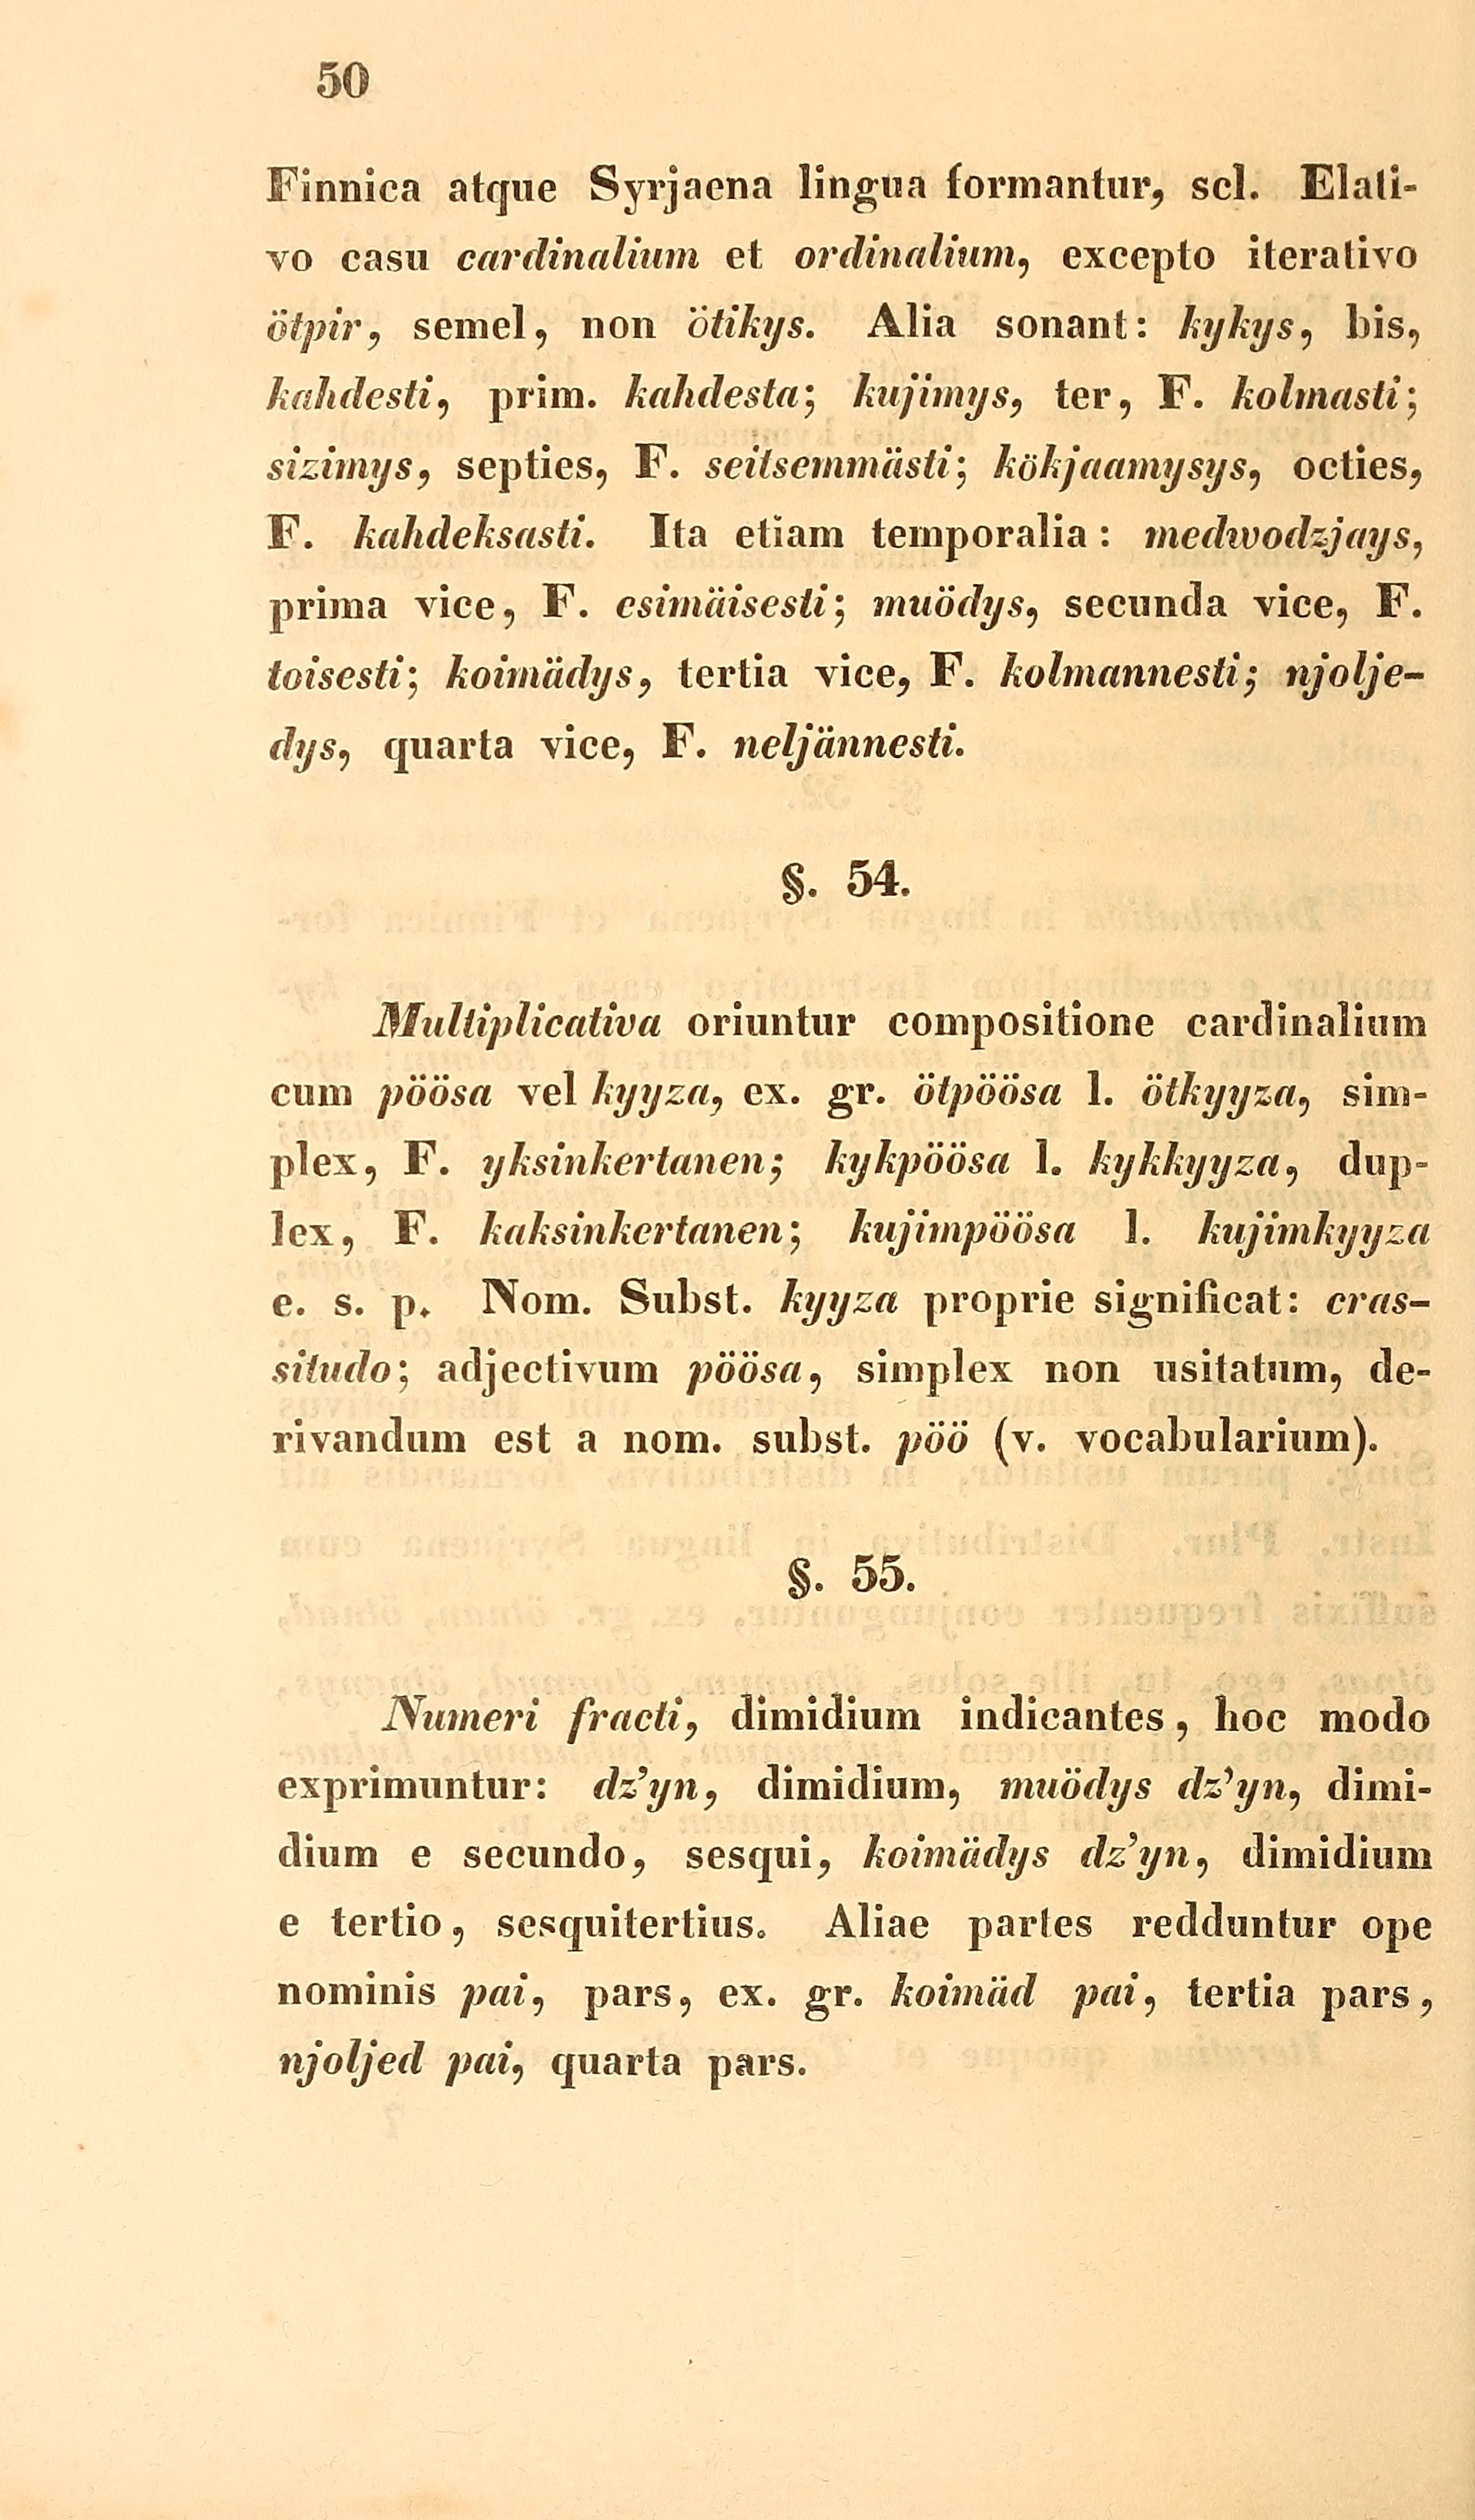50
Finnica atque Syrjaena lingua formantur, scl. Elati-
vo casu cardinalium et ordinalium, excepto iterativo
ötpir, semel, non ötikys. Alia sonant: kykys, bis,
kahdesti, prim. kahdesta; kujimys, ter, F. kolmasti;
sizimys, septies, F. seitsemmästi; kökjaamysys, octies,
F. kahdeksasti. Ita etiam temporalia: medwodzjays,
prima vice, F. esimäisesti; muödys, secunda vice, F.
toisesti; koimädys, tertia vice, F. kolmannesti; njolje-
dys, quarta vice, F. neljännesti.
§. 54.
Multiplicativa oriuntur compositione cardinalium
cum pöösa vel kyyza, ex. gr. ötpöösa l. ötkyyza, sim-
plex, F. yksinkertanen; kykpöösa l. kykkyyza, dup-
lex, F. kaksinkertanen; kujimpöösa l. kujimkyyza
e. s. p. Nom. Subst. kyyza proprie significat: cras-
situdo; adjectivum pöösa, simplex non usitatum, de-
rivandum est a nom. subst. pöö (v. vocabularium).
§. 55.
Numeri fracti, dimidium indicantes, hoc modo
exprimuntur: dz'yn, dimidium, muödys dz'yn, dimi-
dium e secundo, sesqui, koimädys dz'yn, dimidium
e tertio, sesquitertius. Aliae partes redduntur ope
nominis pai, pars, ex. gr. koimäd pai, tertia pars,
njoljed pai, quarta pars.
